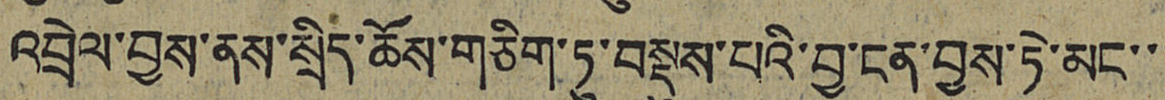འབྲེལ་བྱས་ནས་སྲིད་ཆོས་གཅིག་ཏུ་བསྡུས་པའི་བྱ་ངན་བྱས་ཏེ་མང་་་
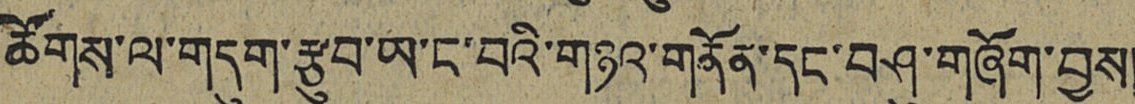ཚོགས་ལ་གདུག་རྩུབ་ཡ་ང་བའི་གཉའ་གནོན་དང་བཤུ་གཞོག་བྱས།
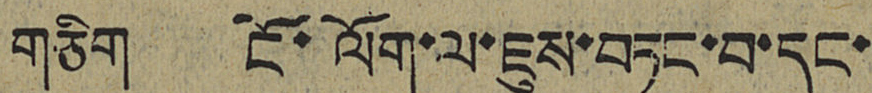གཅིག ངོ་ལོག་ལ་ཇུས་བཏང་བ་དང་
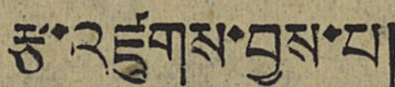རྩ་འཛུགས་བྱས་པ།
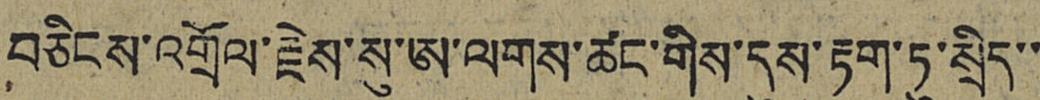བཅིངས་འགྲོལ་རྗེས་སུ་ཨ་ལགས་ཚང་གིས་དུས་རྟག་ཏུ་སྲིད་་
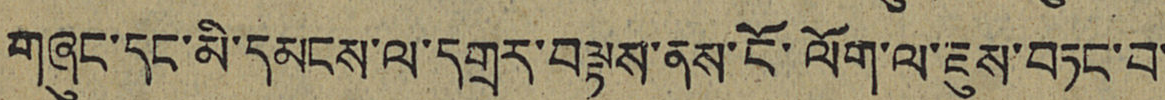གཞུང་དང་མི་དམངས་ལ་དགྲར་བལྟས་ནས་ངོ་ལོག་ལ་ཇུས་བཏང་བ་
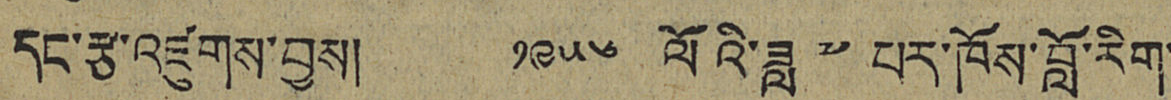དང་རྩ་འཛུགས་བྱས། ༡༩༥༦ ལོའི་ཟླ ༧ པར་ཁོས་བློ་རིག་
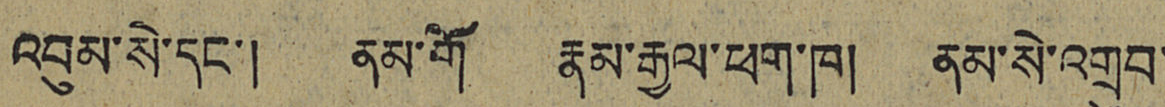འབུམ་སེ་དང་། ནམ་གོ རྣམ་རྒྱལ་ཕག་ཁ། ནམ་སེ་འགྲུབ་
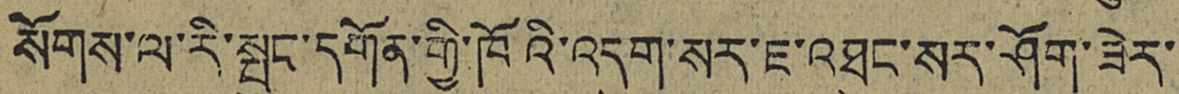སོགས་ལ་རི་སྤུང་དགོན་གྱི་ཁོའི་འདུག་སར་ཇ་འཐུང་སར་ཤོག་ཟེར་
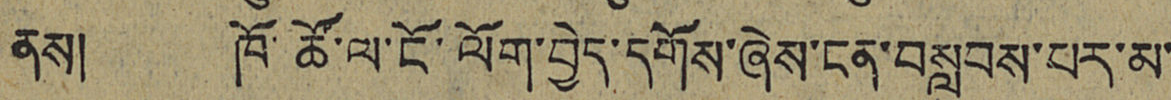ནས། ཁོ་ཚོ་ལ་ངོ་ལོག་བྱེད་དགོས་ཞེས་ངན་བསླབས་པར་མ་
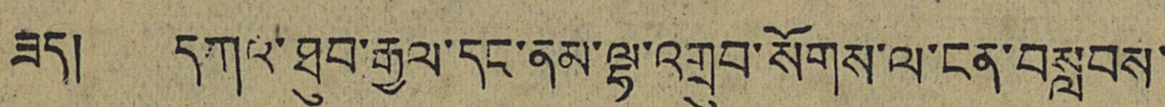ཟད། དཀའ་ཐུབ་རྒྱལ་དང་ནམ་ལྷ་འགྲུབ་སོགས་ལ་ངན་བསླབས་
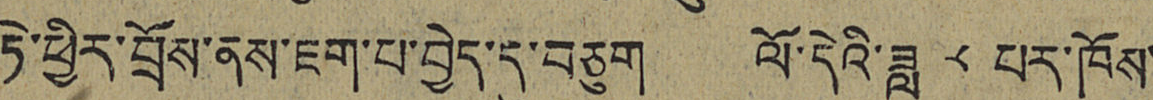ཏེ་ཕྱིར་བྲོས་ནས་ཇག་པ་བྱེད་དུ་བཅུག ལོ་དེའི་ཟླ ༨ པར་ཁོས་
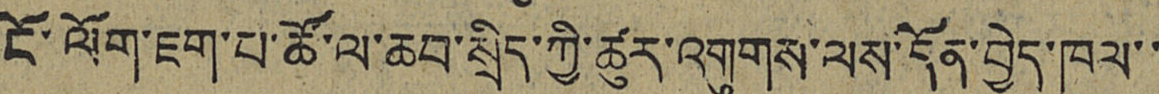ངོ་ལོག་ཇག་པ་ཚོ་ལ་ཆབ་སྲིད་ཀྱི་ཚུར་འགུགས་ལས་དོན་བྱེད་ཁུལ་་
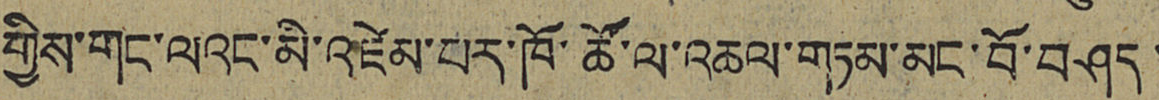གྱིས་གང་ལའང་མི་འཛེམ་པར་ཁོ་ཚོ་ལ་འཆལ་གཏམ་མང་བོ་བཤད་
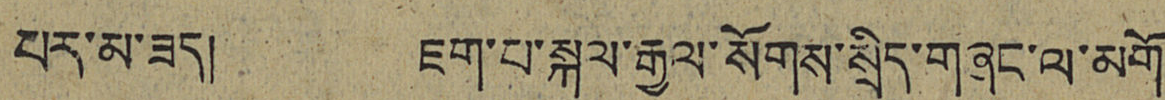པར་མ་ཟད། ཇག་པ་སྐལ་རྒྱལ་སོགས་སྲིད་གཞུང་ལ་མགོ་
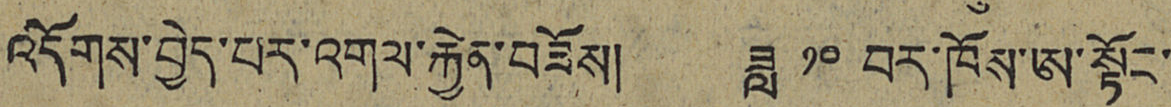འདོགས་བྱེད་པར་འགལ་རྐྱེན་བཟོས། ཟླ ༡༠ བར་ཁོས་ཨ་སྟོང་
